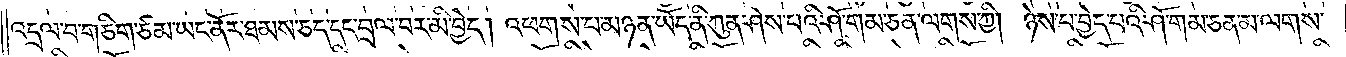འདྲལ་བ་གཅིག་ཙམ་ཡང་ནོར་ཐམས་ཅད་དང་བྲལ་བར་མི་བྱེད། འཕགས་པ་མཉན་ཡོད་ནི་ཀུན་ཤེས་པའི་ཤོ་གམ་ཅན་ལགས་ཀྱི། ཉེས་པ་བྱེད་པའི་ཤོ་གམ་ཅན་མ་ལགས་
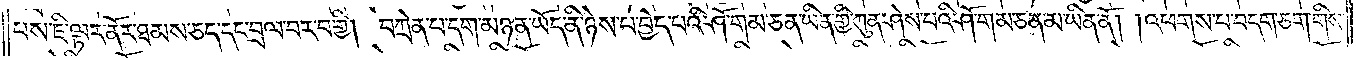པས་ཇི་ལྟར་ནོར་ཐམས་ཅད་དང་བྲལ་བར་བགྱི། བཀྲེན་པ་དག་མཉན་ཡོད་ནི་ཉེས་པ་བྱེད་པའི་ཤོ་གམ་ཅན་ཡིན་གྱི་ཀུན་ཤེས་པའི་ཤོ་གམ་ཅན་མ་ཡིན་ནོ། །འཕགས་པ་བདག་ཅག་གིས་
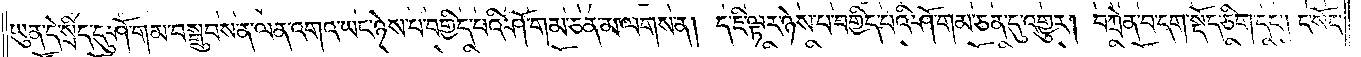ཡུན་དེ་སྲིད་དུ་ཤོ་གམ་བསྒྲུབས་ན་ལན་འགའ་ཡང་ཉེས་པ་བགྱིད་པའི་ཤོ་གམ་ཅན་མ་ལགས་ན། ད་ཇི་ལྟར་ཉེས་པ་བགྱིད་པའི་ཤོ་གམ་ཅན་དུ་འགྱུར། བཀྲེན་བ་དག་སྡོད་ཅིག་དང༌། ང་སོང་
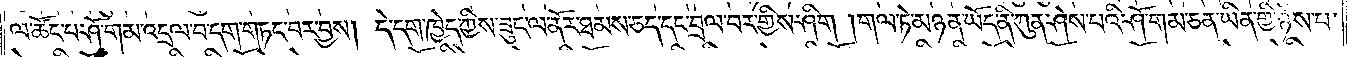ལ་ཚོང་པ་ཤོ་གམ་འདྲལ་བ་དག་གཏང་བར་བྱས། དེ་དག་ཁྱེད་ཀྱིས་ཟུང་ལ་ནོར་ཐམས་ཅད་དང་བྲལ་བར་གྱིས་ཤིག །གལ་ཏེ་མཉན་ཡོད་ནི་ཀུན་ཤེས་པའི་ཤོ་གམ་ཅན་ཡིན་གྱི་ཉེས་པ་
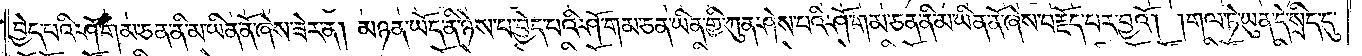བྱེད་པའི་ཤོ་གམ་ཅན་ནི་མ་ཡིན་ནོ་ཞེས་ཟེར་ན། མཉན་ཡོད་ནི་ཉེས་པ་བྱེད་པའི་ཤོ་གམ་ཅན་ཡིན་གྱི་ཀུན་ཤེས་པའི་ཤོ་གམ་ཅན་ནི་མ་ཡིན་ནོ་ཞེས་བརྗོད་པར་བྱའོ། །གལ་ཏེ་ཡུན་དེ་སྲིད་དུ་
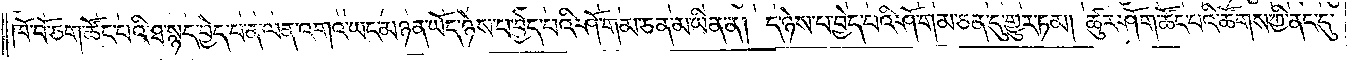ཁོ་བོ་ཅག་ཚོང་པའི་ཐ་སྙད་བྱེད་པ་ན་ལན་འགའ་ཡང་མཉན་ཡོད་ཉེས་པ་བྱེད་པའི་ཤོ་གམ་ཅན་མ་ཡིན་ན། ད་ཉེས་པ་བྱེད་པའི་ཤོ་གམ་ཅན་དུ་གྱུར་ཏམ། ཚུར་ཤོག་ཚོང་པའི་ཚོགས་ཀྱི་ནང་དུ་
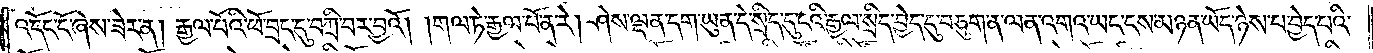འདོང་ངོ་ཞེས་ཟེར་ན། རྒྱལ་པོའི་ཕོ་བྲང་དུ་བཀྲི་བར་བྱའོ། །གལ་ཏེ་རྒྱལ་པོ་ན་རེ། ཤེས་ལྡན་དག་ཡུན་དེ་སྲིད་དུ་ངའི་རྒྱལ་སྲིད་བྱེད་དུ་བཅུག་ན་ལན་འགའ་ཡང་ངས་མཉན་ཡོད་ཉེས་པ་བྱེད་པའི་
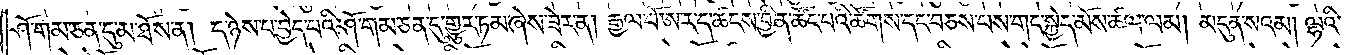ཤོ་གམ་ཅན་དུ་མ་ཐོས་ན། ད་ཉེས་པ་བྱེད་པའི་ཤོ་གམ་ཅན་དུ་གྱུར་ཏམ་ཞེས་ཟེར་ན། རྒྱལ་པོ་ཨ་ར་ད་ཚངས་བྱིན་ཚོང་པའི་ཚོགས་དང་བཅས་པས་གང་སྐྱེད་མོས་ཚལ་ལམ། མདུན་སའམ། ལྷའི་
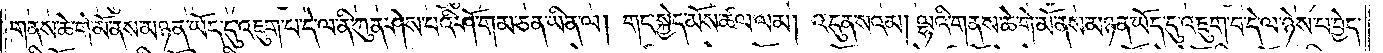གནས་ཆེ་གེ་མོ་ནས་མཉན་ཡོད་དུ་འཇུག་པ་དེ་ལ་ནི་ཀུན་ཤེས་པའི་ཤོ་གམ་ཅན་ཡིན་ལ། གང་སྐྱེད་མོས་ཚལ་ལམ། འདུན་སའམ། ལྷའི་གནས་ཆེ་གེ་མོ་ནས་མཉན་ཡོད་དུ་འཇུག་བ་དེ་ལ་ཉེས་པ་བྱེད་
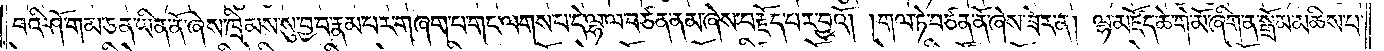བའི་ཤོ་གམ་ཅན་ཡིན་ནོ་ཞེས་ཁྲིམས་སུ་བྱ་བ་རྣམ་པར་གཞག་པ་གང་ལགས་པ་དེ་ལྷ་ལ་བཙན་ནམ་ཞེས་བརྗོད་པར་བྱའོ། །གལ་ཏེ་བཙན་ནོ་ཞེས་ཟེར་ན། ལྷ་མཛོད་ཆེ་གེ་མོ་ཞིག་ན་སྒྲོམ་མཆིས་པ་
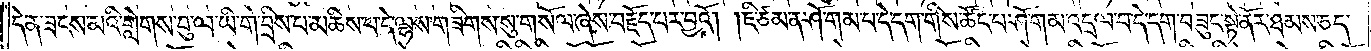དེ་ན་ཟངས་མའི་གླེགས་བུ་ལ་ཡི་གེ་བྲིས་པ་མཆིས་པ་དེ་ལྷས་གཟིགས་སུ་གསོལ་ཞེས་བརྗོད་པར་བྱའོ། །ཇི་ཙམ་ན་ཤོ་གམ་པ་དེ་དག་གིས་ཚོང་པ་ཤོ་གམ་འདྲལ་བ་དེ་དག་བཟུང་སྟེ་ནོར་ཐམས་ཅད་
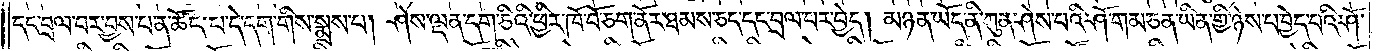དང་བྲལ་བར་བྱས་པ་ན་ཚོང་པ་དེ་དག་གིས་སྨྲས་པ། ཤེས་ལྡན་དག་ཅིའི་ཕྱིར་ཁོ་བོ་ཅག་ནོར་ཐམས་ཅད་དང་བྲལ་པར་བྱེད། མཉན་ཡོད་ནི་ཀུན་ཤེས་པའི་ཤོ་གམ་ཅན་ཡིན་གྱི་ཉེས་པ་བྱེད་པའི་ཤོ་
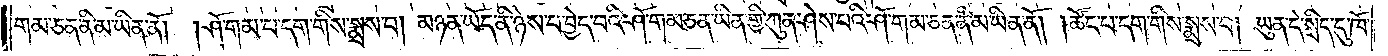གམ་ཅན་ནི་མ་ཡིན་ནོ། །ཤོ་གམ་པ་དག་གིས་སྨྲས་པ། མཉན་ཡོད་ནི་ཉེས་པ་བྱེད་པའི་ཤོ་གམ་ཅན་ཡིན་གྱི་ཀུན་ཤེས་པའི་ཤོ་གམ་ཅན་ནི་མ་ཡིན་ནོ། །ཚོང་པ་དག་གིས་སྨྲས་པ། ཡུན་དེ་སྲིད་དུ་ཁོ་
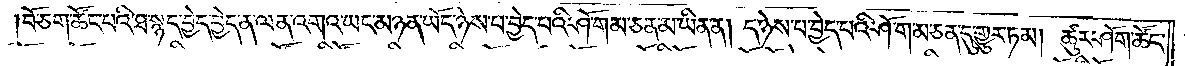བོ་ཅག་ཚོང་པའི་ཐ་སྙད་བྱེད་བྱེད་ན་ལན་འགའ་ཡང་མཉན་ཡོད་ཉེས་པ་བྱེད་པའི་ཤོ་གམ་ཅན་མ་ཡིན་ན། ད་ཉེས་པ་བྱེད་པའི་ཤོ་གམ་ཅན་དུ་གྱུར་ཏམ། ཚུར་ཤོག་ཚོང་
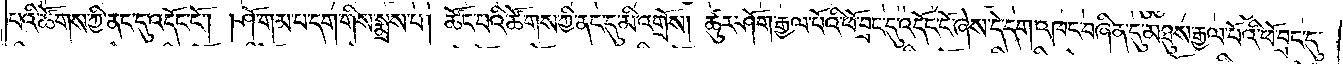པའི་ཚོགས་ཀྱི་ནང་དུ་འདོང་ངོ༌། །ཤོ་གམ་པ་དག་གིས་སྨྲས་པ། ཚོང་པའི་ཚོགས་ཀྱི་ནང་དུ་མི་འགྲོས། ཚུར་ཤོག་རྒྱལ་པོའི་ཕོ་བྲང་དུ་འདོང་ངོ་ཞེས་དེ་དག་འཁང་བཞིན་དུ་མཐུས་རྒྱལ་པོའི་ཕོ་བྲང་དུ་
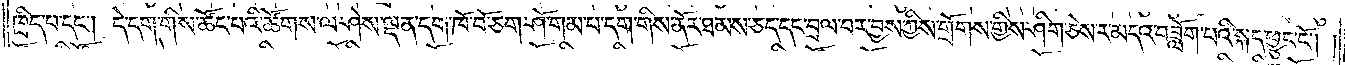ཁྲིད་པ་དང༌། དེ་དག་གིས་ཚོང་པའི་ཚོགས་ལ་ཤེས་ལྡན་དག་ཁོ་བོ་ཅག་ཤོ་གམ་པ་དག་གིས་ནོར་ཐམས་ཅད་དང་བྲལ་བར་བྱས་ཀྱིས་གྲོགས་གྱིས་ཤིག་ཅེས་ར་མདའ་བཟློག་པའི་སྐད་ཕྱུང་ངོ༌། །
